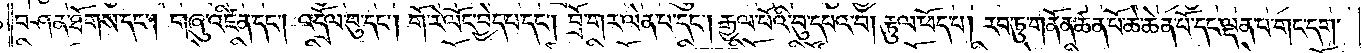བཤན་ཐོགས་དང༌། གཞུ་འཛིན་དང༌། འདྲོལ་བུ་དང༌། གོ་རེ་ལོང་བྱེད་པ་དང༌། བྲོ་གར་ལེན་པ་དང༌། རྒྱལ་པོའི་བུ་དཔའ་བ། རྟུལ་ཕོད་པ། རབ་ཏུ་གནོན་ཚན་པོ་ཆེ་ཆེན་པོ་དང་ལྡན་པ་གང་དག་
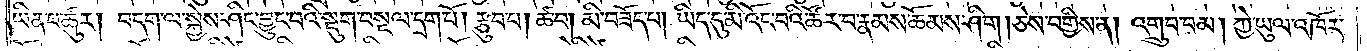ཡིན་པ་ཚུར། བདག་ལ་སྐྱེས་ཤིང་བྱུང་བའི་སྡུག་བསྔལ་དྲག་པོ། རྩུབ་པ། ཚ་བ། མི་བཟོད་པ། ཡིད་དུ་མི་འོང་བའི་ཚོར་བ་རྣམས་ཆོམས་ཤིག །ཅེས་བགྱིས་ན། འགྲུབ་བམ། ཀྱེ་ཡུལ་འཁོར་
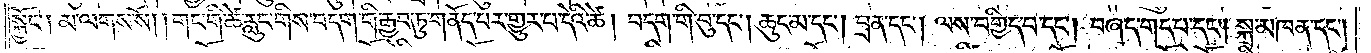སྐྱོང༌། མ་ལགས་སོ། །གང་གི་ཚེ་རླུང་གིས་བདག་གི་རྒྱབ་ཏུ་གནོད་པར་གྱུར་པ་དེའི་ཚེ། བདག་གི་བུ་དང༌། ཆུང་མ་དང༌། བྲན་དང༌། ལས་བགྱིད་པ་དང༌། བཞད་གད་པ་དང༌། སྐྲ་མཁན་དང༌།
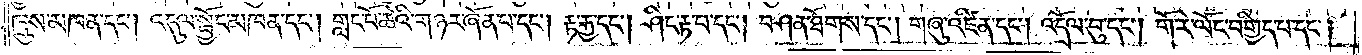ཁྲུས་མཁན་དང༌། འདུལ་སྦྱོང་མཁན་དང༌། གླང་པོ་ཆེའི་གཉར་ཞོན་པ་དང༌། རྟ་རྐྱ་དང༌། ཤིང་རྟ་པ་དང༌། བཤན་ཐོགས་དང༌། གཞུ་འཛིན་དང༌། འདྲོལ་བུ་དང༌། གོ་རེ་ལོང་བགྱིད་པ་དང༌།
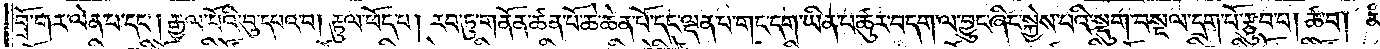བྲོ་གར་ལེན་པ་དང༌། རྒྱལ་པོའི་བུ་དཔའ་བ། རྟུལ་ཕོད་པ། རབ་ཏུ་གནོན་ཚན་པོ་ཆེ་ཆེན་པོ་དང་ལྡན་པ་གང་དག་ཡིན་པ་ཚུར་བདག་ལ་བྱུང་ཞིང་སྐྱེས་པའི་སྡུག་བསྔལ་དྲག་པོ་རྩུབ་པ། ཚ་བ། མི་
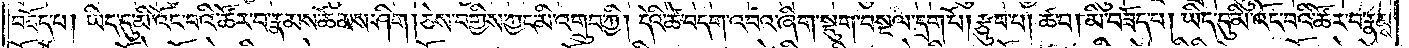བཟོད་པ། ཡིད་དུ་མི་འོང་བའི་ཚོར་བ་རྣམས་ཆོམས་ཤིག །ཅེས་བགྱིས་ཀྱང་མི་འགྲུབ་ཀྱི། དེའི་ཚེ་བདག་འབའ་ཞིག་སྡུག་བསྔལ་དྲག་པོ། རྩུབ་པ། ཚ་བ། མི་བཟོད་པ། ཡིད་དུ་མི་འོང་བའི་ཚོར་བ་རྣམས་
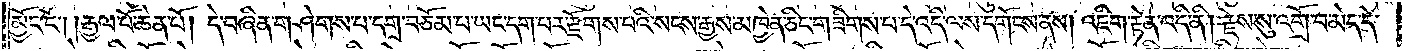མྱོང་ངོ༌། །རྒྱལ་པོ་ཆེན་པོ། དེ་བཞིན་གཤེགས་པ་དགྲ་བཅོམ་པ་ཡང་དག་པར་རྫོགས་པའི་སངས་རྒྱས་མཁྱེན་ཅིང་གཟིགས་པ་དེ་འདི་ལས་དགོངས་ནས། འཇིག་རྟེན་འདི་ནི། རྗེས་སུ་འགྲོ་བ་མེད་དེ་
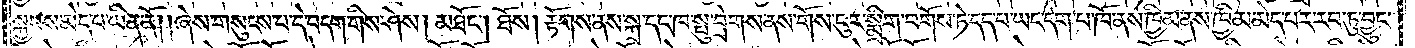སྐྱབས་མེད་པ་ཡིན་ནོ། །ཞེས་གསུངས་པ་དེ་བདག་གིས་ཤེས། མཐོང༌། ཐོས། རྟོགས་ནས་སྐྲ་དང་ཁ་སྤུ་བྲེགས་ནས་གོས་ངུར་སྨྲིག་བགོས་ཏེ་དད་པ་ཡང་དག་པ་ཁོ་ནས་ཁྱིམ་ནས་ཁྱིམ་མེད་པར་རབ་ཏུ་བྱུང་
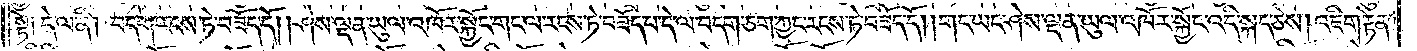སྟེ༑ དེ་ལ་ནི། བདག་རངས་ཏེ་བཟོད་དོ། །ཤེས་ལྡན་ཡུལ་འཁོར་སྐྱོང་གང་ལ་རངས་ཏེ་བཟོད་པ་དེ་ལ་བདག་ཅག་ཀྱང་རངས་ཏེ་བཟོད་དོ། །གང་ཡང་ཤེས་ལྡན་ཡུལ་འཁོར་སྐྱོང་འདི་སྐད་ཅེས། འཇིག་རྟེན་
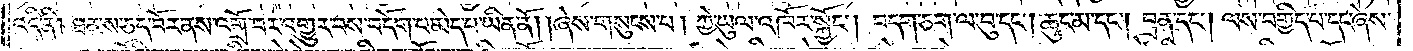འདི་ནི། ཐམས་ཅད་བོར་ནས་འགྲོ་བར་འགྱུར་བས་བདོག་པ་མེད་པ་ཡིན་ནོ། །ཞེས་གསུངས་པ། ཀྱེ་ཡུལ་འཁོར་སྐྱོང༌། བདག་ཅག་ལ་བུ་དང༌། ཆུང་མ་དང༌། བྲན་དང༌། ལས་བགྱིད་པ་དང་ཞེས་
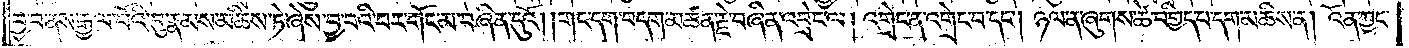བྱ་བ་ནས་རྒྱལ་པོའི་བུ་རྣམས་མཆིས་ཏེ་ཞེས་བྱ་བའི་བར་གོང་མ་བཞིན་དུའོ། །གང་དག་བདག་མཚན་རྗེ་བཞིན་འབྲེང་ལ། འགྲེང་ན་འགྲེང་བ་དང༌། ཉལ་ན་ཞུགས་ཚེ་བགྱིད་པ་དག་མཆིས་ན། འོན་ཀྱང་
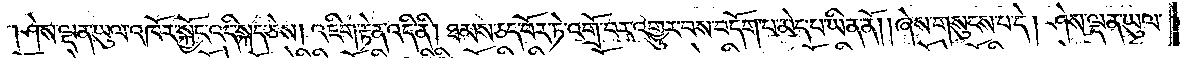ཤེས་ལྡན་ཡུལ་འཁོར་སྐྱོང་འདི་སྐད་ཅེས། འཇིག་རྟེན་འདི་ནི། ཐམས་ཅད་བོར་ཏེ་འགྲོ་བར་འགྱུར་བས་བདོག་པ་མེད་པ་ཡིན་ནོ། །ཞེས་གསུངས་པ་དེ། ཤེས་ལྡན་ཡུལ
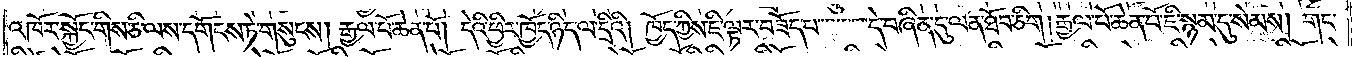འཁོར་སྐྱོང་གིས་ཅི་ལས་དགོངས་ཏེ་གསུངས། རྒྱལ་པོ་ཆེན་པོ། དེའི་ཕྱིར་ཁྱོད་ཉིད་ལ་དྲིའི། ཁྱོད་ཀྱིས་ཇི་ལྟར་བཟོད་པ་དེ་བཞིན་དུ་ལན་ཐོབ་ཅིག །རྒྱལ་པོ་ཆེན་པོ་ཇི་སྙམ་དུ་སེམས། གང་
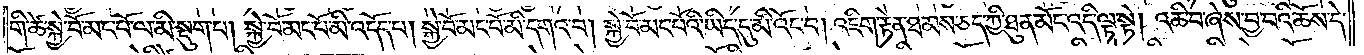གི་ཚེ་སྐྱེ་བོ་མང་པོ་ལ་མི་སྡུག་པ། སྐྱེ་བོ་མང་པོ་མི་འདོད་པ། སྐྱེ་བོ་མང་པོ་མི་དགའ་བ། སྐྱེ་བོ་མང་པོའི་ཡིད་དུ་མི་འོང་བ། འཇིག་རྟེན་ཐམས་ཅད་ཀྱི་ཐུན་མོང་འདི་ལྟ་སྟེ། འཆི་བ་ཞེས་བྱ་བའི་ཆོས་དེ་
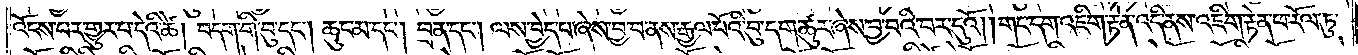འོངས་པར་གྱུར་པ་དེའི་ཚེ། བདག་གི་བུ་དང༌། ཆུང་མ་དང༌། བྲན་དང༌། ལས་བྱེད་པ་ཞེས་བྱ་བ་ནས་རྒྱལ་པོའི་བུ་དག་ཚུར་ཞེས་བྱ་བའི་བར་དུའོ། །གང་དག་འཇིག་རྟེན་འདི་ནས་འཇིག་རྟེན་ཕ་རོལ་ཏུ་
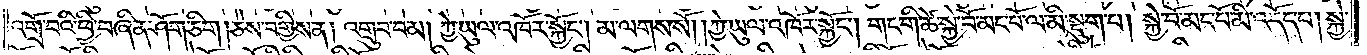འགྲོ་བའི་ཕྱི་བཞིན་ཤོག་ཅིག །ཅེས་བགྱིས་ན། འགྲུབ་བམ། ཀྱེ་ཡུལ་འཁོར་སྐྱོང་མ་ལགས་སོ། །ཀྱེ་ཡུལ་འཁོར་སྐྱོང༌། གང་གི་ཚེ་སྐྱེ་བོ་མང་པོ་ལ་མི་སྡུག་པ། སྐྱེ་བོ་མང་པོ་མི་འདོད་པ། སྐྱེ་
